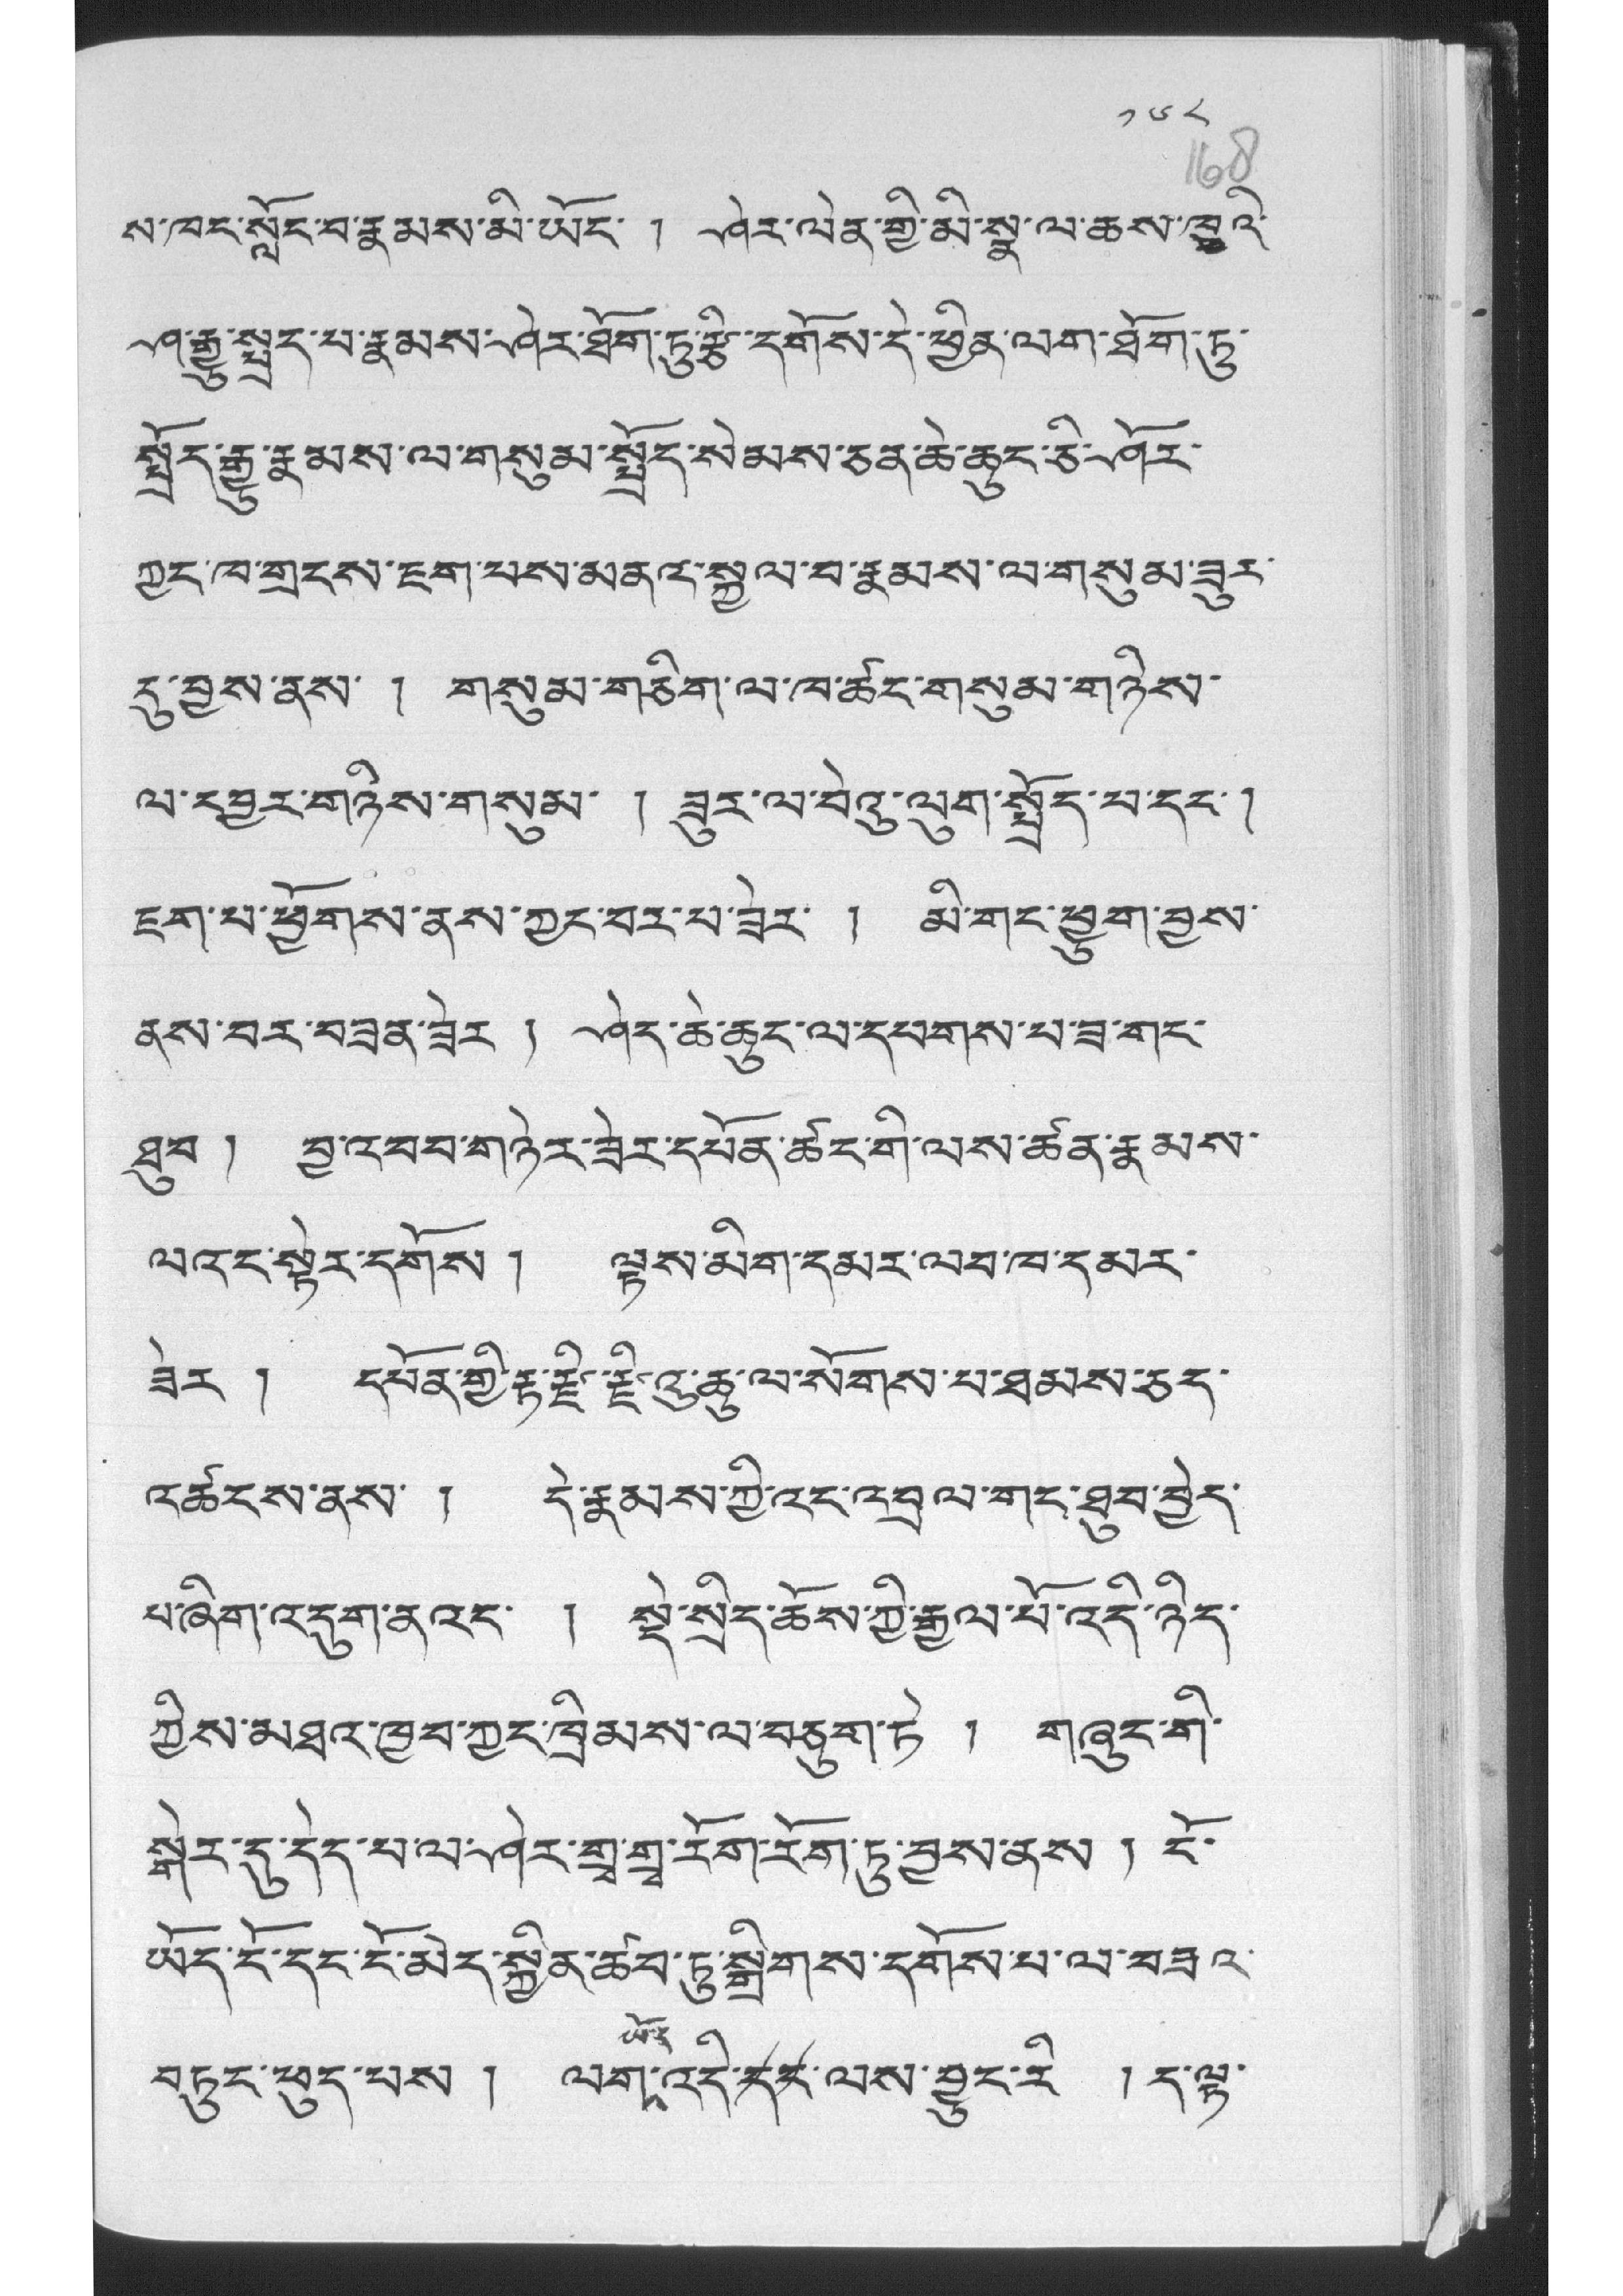༡༦༨
ས་ཁང་སློང་བ་རྣམས་མི་ཡོང་ ། ཤེར་ལེན་གྱི་མི་སྣ་ལ་ཆས་ཁྲཁའི་
ཤ་རྒྱུ་སྤྲད་པ་རྣམས་ཤེར་ཐོག་ཏུ་རྩི་དགོས་དེ་ཕྱིན་ལག་ཐོག་ཏུ་
སྤྲོད་རྒྱུ་རྣམས་ལ་གསུམ་སྤྲོད་སེམས་ཅན་ཆེ་ཆུང་ཅི་ཤོར་
ཀྱང་ཁ་གྲངས་ཇག་པས་མནའ་སྐྱལ་བ་རྣམས་ལ་གསུམ་ཟུར་
དུ་བྱས་ནས་ ། གསུམ་གཅིག་ལ་ཁ་ཚང་གསུམ་གཉིས་
ལ་དབྱར་གཉིས་གསུམ་ ། ཟུར་ལ་བེའུ་ལུག་སྤྲོད་པ་དང་།
ཇག་པ་ཕྱོགས་ནས་ཀྱང་བར་པ་ཟེར་ ། མི་གང་ཕྱུག་བྱས་
ནས་བར་བཟན་ཟེར ། ཤེད་ཆེ་ཆུང་ལ་དཔགས་པ་ཟ་གང་
ཐུབ ། བྱ་འབབ་གཉེར་ཟེར་དཔོན་ཚང་གི་ལས་ཚན་རྣམས་
ལའང་སྟེར་དགོས ། ལྟས་མིག་དམར་ལབ་ཁ་དམར་
ཟེར ། དཔོན་གྱི་རྟ་རྫི་རྫིའུ་ཆུ་ལ་སོགས་པ་ཐམས་ཅད་
འཚངས་ནས་ ། དེ་རྣམས་ཀྱི་འང་འབྲེལ་གང་ཐུབ་བྱེད་
པ་ཞིག་འདུག་ནའང་ ། སྡེ་སྲིད་ཆོས་ཀྱི་རྒྱལ་པོ་འདི་ཉིད་
ཀྱིས་མཐའ་ཁྱབ་ཀྱང་ཁྲིམས་ལ་བཅུག་ཏེ ། གཞུང་གི་
སྒེར་དུ་དེད་པ་ལ་ཤེར་གྲྭ་གྲྭ་རོག་རོག་ཏུ་བྱས་ནས ། ངོ་
ཡོད་ངོ་དང་ངོ་མེད་སྐྱིན་ཚབ་ཏུ་སྒྲིགས་དགོས་པ་ལ་བཟའ་
བཏུང་ཕུད་པས ། ལག་ཡོད་འདི་དང་ལས་བྱུང་རི ། ད་ལྟ་
